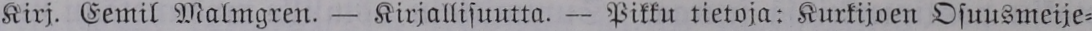Kirj. Eemil Malmgren. — Kirjallisuutta. — Pikku tietoja: Kurkijoen Osuusmeije-
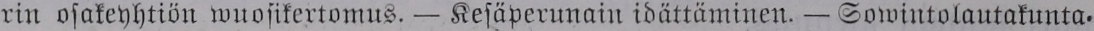rin osakeyhtiön wuosikertomus. — Kesäperunain idättäminen. — Sowintolautakunta.
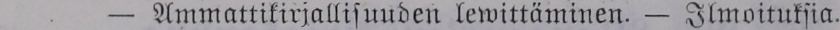1 Ammattikirjallisuuden lewittäminen. — Ilmoituksia.
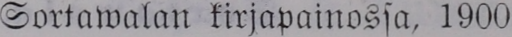Sortawalan kirjapainossa, 1900.
